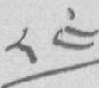༨༤
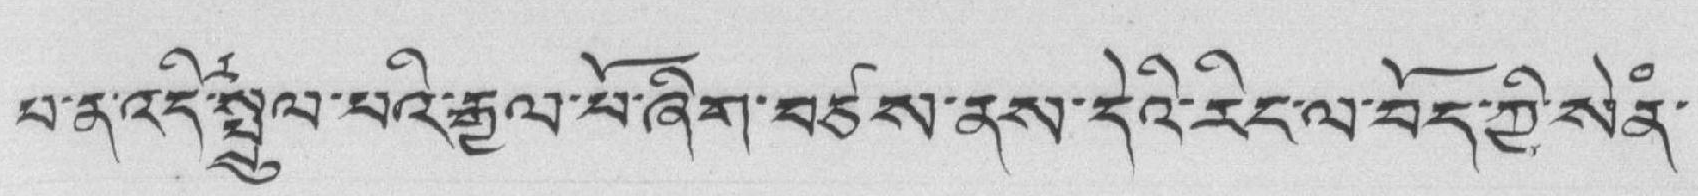པ་ན་འདིར་སྤྲུལ་པའི་རྒྱལ་པོ་ཞིག་བཙས་ནས་དེའི་རིང་ལ་བོད་ཀྱི་སེནཾ་
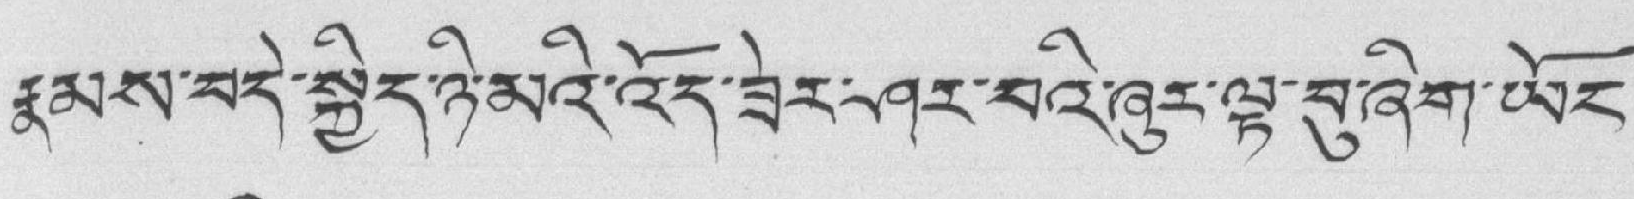རྣམས་བདེ་སྐྱིད་ཉི་མའི་འོད་ཟེར་ཤར་བའི་ཞུར་ལྟ་བུ་ཞིག་ཡོང་
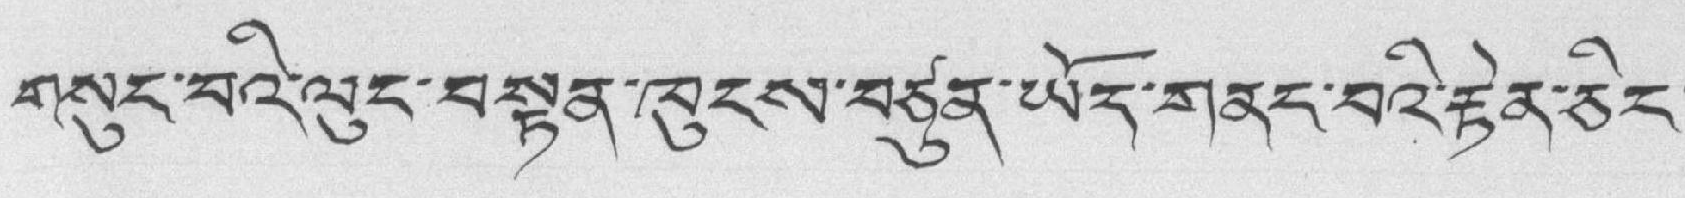གསུང་བའི་ལུང་བསྟན་ཁུངས་བཙུན་ཡོད་གནང་བའི་རྟེན་ཅིང་
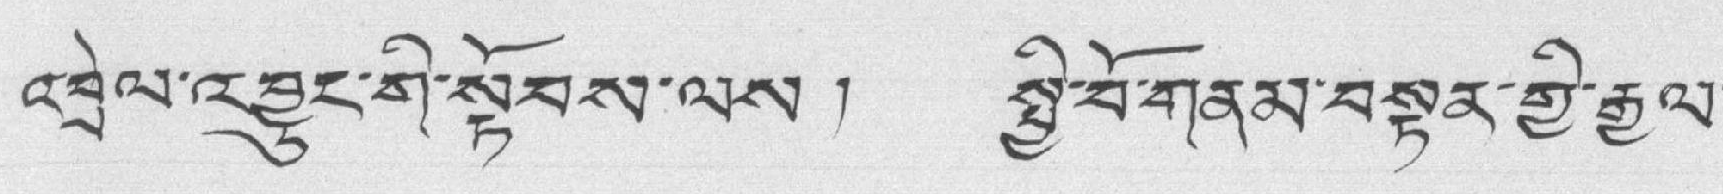འབྲེལ་འབྱུང་གི་སྟོབས་ལས། སྤྱི་བོ་གནམ་བསྟན་གྱི་རྒྱལ་
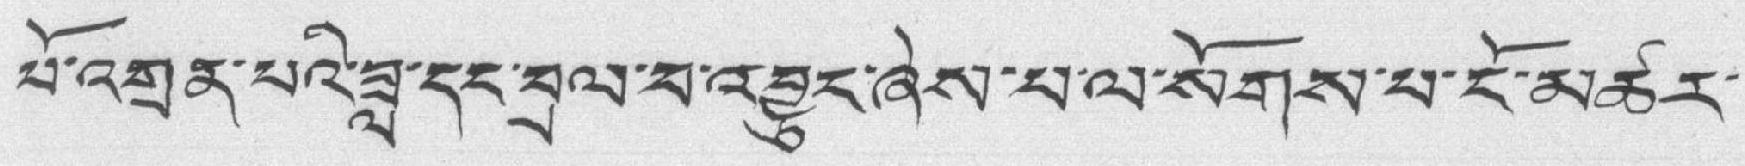པོ་འགྲན་པའི་ཟླ་དང་བྲལ་བ་འབྱུང་ཞེས་པ་ལ་སོགས་པ་ངོ་མཚར་
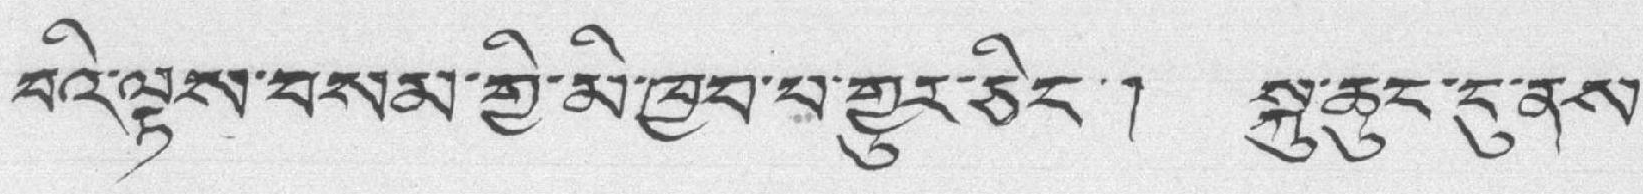བའི་ལྟས་བསམ་གྱི་མི་ཁྱབ་པ་གྱུར་ཅིང་། སྐུ་ཆུང་ངུ་ནས་
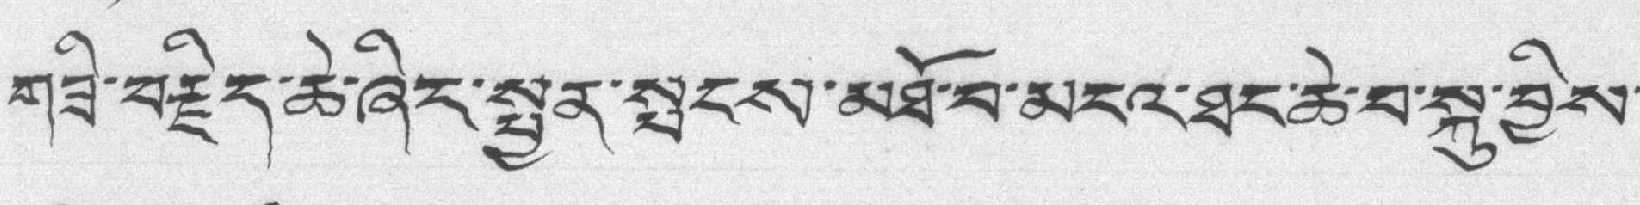གཟི་བརྗིད་ཆེ་ཞིང་སྤྱན་སྤངས་མཐོ་བ་མངའ་ཐང་ཆེ་བ་སྐུ་བྱིས་
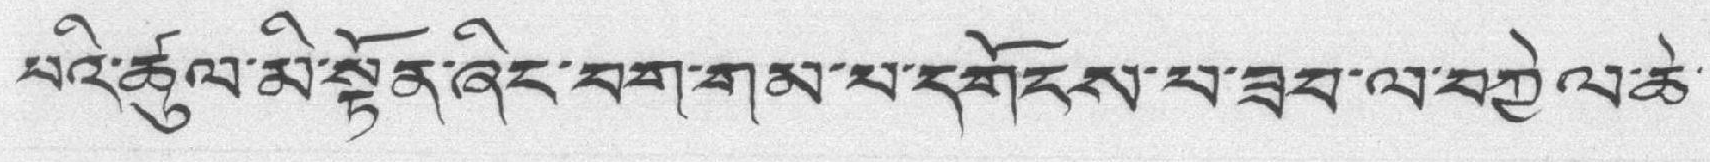པའི་ཚུལ་མི་སྟོན་ཞིང་བག་གམ་པ་དགོངས་པ་ཟབ་ལ་བཀྱེལ་ཆེ་
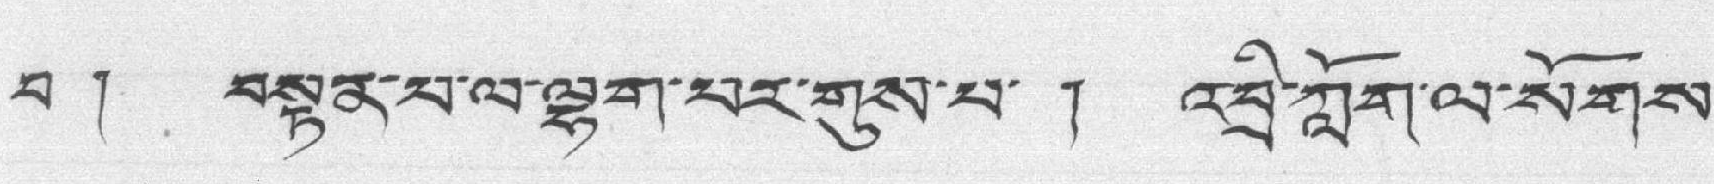བ ། བསྟན་པ་ལ་ལྷག་པར་གུས་པ་ ། འབྲི་ཀློག་ལ་སོགས་
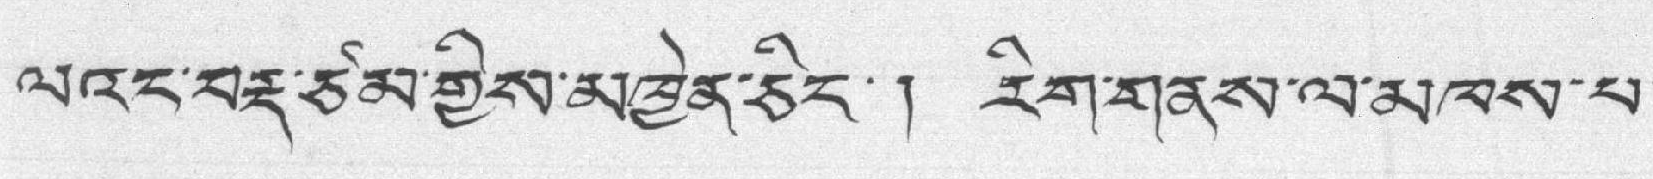ལའང་བརྡ་ཙམ་གྱིས་མཁྱེན་ཅིང་། རིག་གནས་ལ་མཁས་པ་
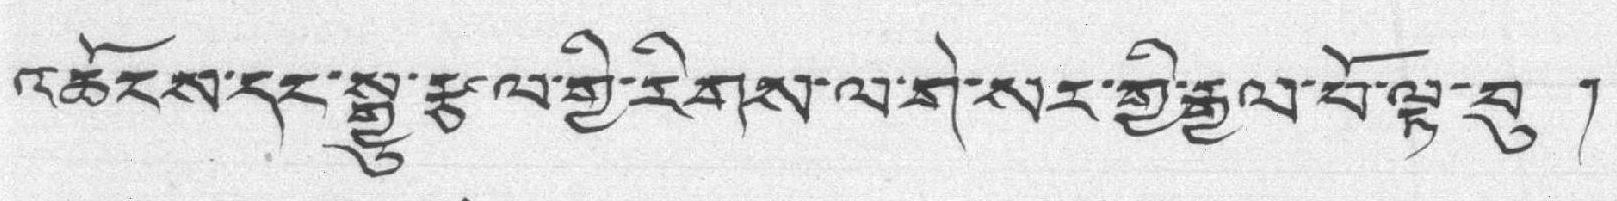འཆོངས་དང་སྒྱུ་རྩ་ལ་གྱི་རིགས་ལ་གེ་སར་གྱི་རྒྱལ་པོ་ལྟ་བུ །
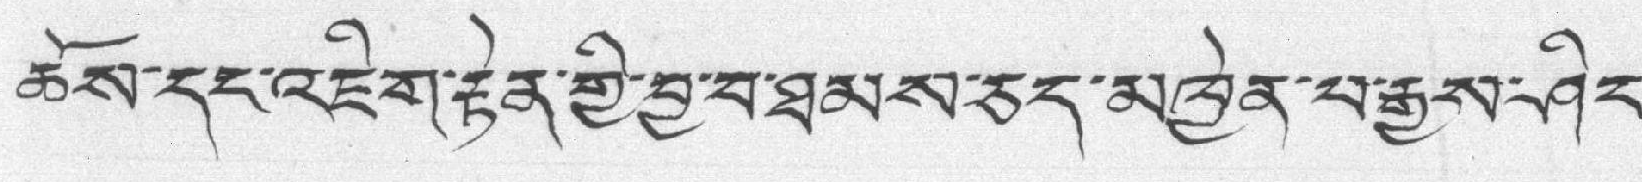ཆོས་དང་འཇིག་རྟེན་གྱི་བྱ་བ་ཐམས་ཅད་མཁྱེན་པ་རྒྱས་ཤིང་
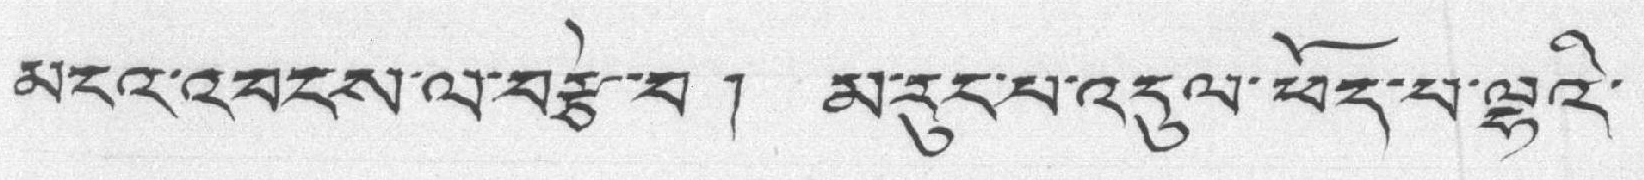མངའ་འབངས་ལ་བརྩེ་བ ། མ་རུང་པ་འདུལ་ཕོད་པ་ལྷའི་
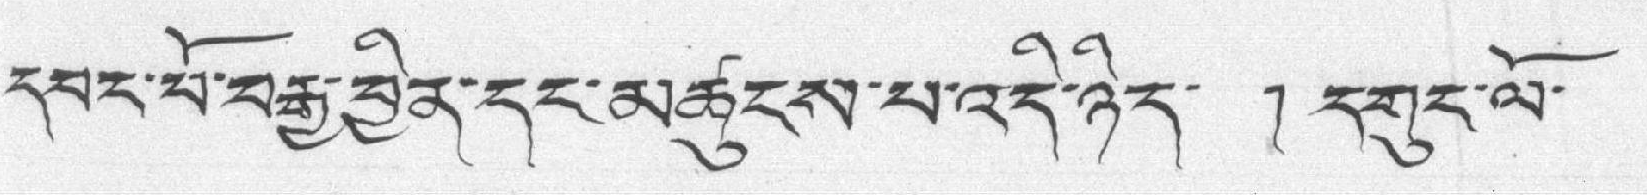དབང་པོ་བརྒྱ་ཕྱིན་དང་མཚུངས་པ་འདི་ཉིད་ ། དགུང་ལོ་
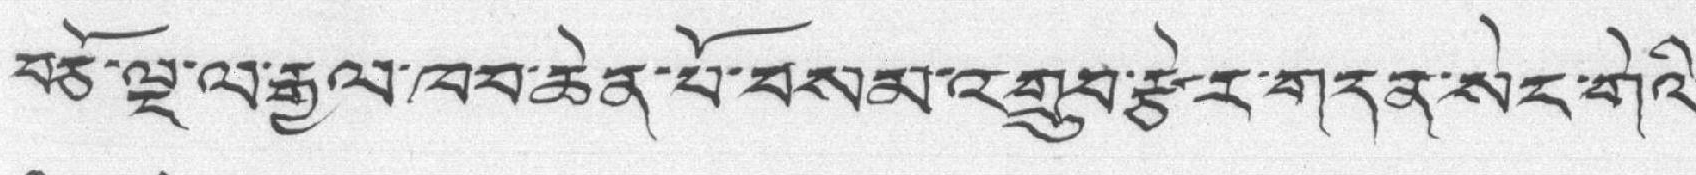བཅོ་ལྔ་ལ་རྒྱལ་ཁབ་ཆེན་པོ་བསམ་འགྲུབ་རྩེར་གདན་སེང་གེའི་
